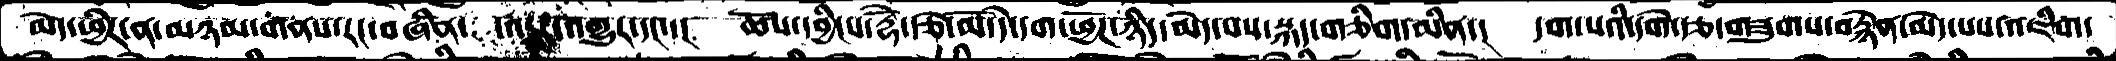མེད་ཕྱིར་ན་མཉམ་གནས་རང་བཞིན་འདར་འགྱུར་དང་་།  ཆོས་དབྱིངས་རྡོེ་རྩེ་མོ་དེ་དག་ཕྱོཌ་ཉིད་མེད་པས་སྐད་གཅིག་མིན་།  དག་པའི་དགེ་རྩ་གཟུགས་བརྙེན་མེད་པས་འཇིག་
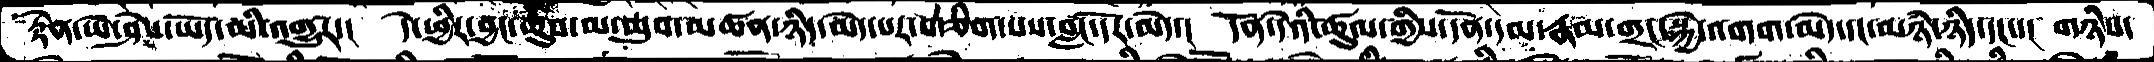རྟེན་ཡེ་ཤེས་ཡོད་མི་འགྱུར་།  དེ་ཕྱིར་བྱང་ཆུབ་མ་ཆུབ་མཚན་ཉིད་མེད་པར་གཅིག་པས་བླང་དོར་མེད་།  དོན་དེའི་ཚུལ་གྱིས་དོན་དམ་རྣམ་གྲང་སྐྱེ་འགག་མེད་དང་མཉཾ་ཉིད་དང་་།  གཉིས་
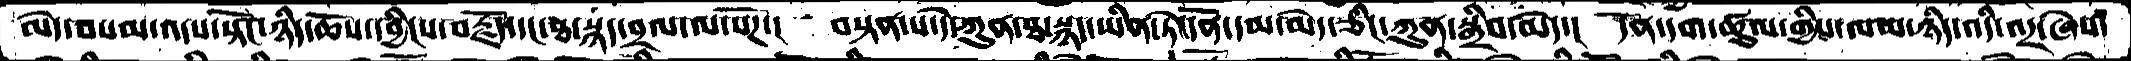མེད་བསམ་འདས་སྟོང་ཉིད་ཆོས་དབྱིངས་བརྗོད་དང་ཐ་སྙད་བྲལ་ལ་སོཌ་།  བསྟན་པ་དེ་ཀུན་ཐ་སྙད་ཡིན་ཏེ་དོན་དམ་མེད་ཅིང་ཀུན་སྒྲིབ་མེད་།  དོན་དག་ཚུལ་གྱིས་ལམ་ཉིད་འདི་འདྲ་ཞེས་
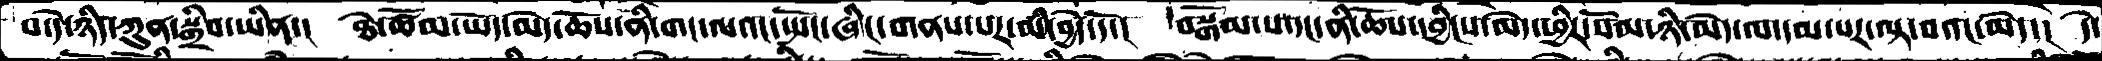པ་དེ་ཉིད་ཀུན་སྒྲིབ་ཡིན་།  ཐེ་ཚོམ་ཡོད་མེད་ཆོས་ནི་གང་ལའང་སྤོང་ཞིང་གནས་པར་མི་བྱེད་དོ་།  བསྒོམ་པ་དང་ནི་ཆོས་དབྱིངས་མེད་ཕྱིར་སོམ་ཉི་མེད་ལ་དམ་པར་ལྟ་བའང་མེད་།  དེ་
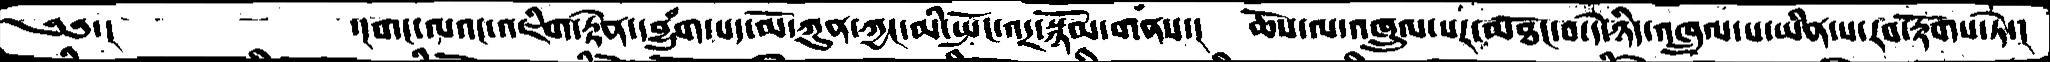༄༅་།     ་།གང་ལའང་འཇིག་རྟེན་དབྱུཾག་པད་མོ་ཀུན་ཀྱང་མི་སྤོང་འདྲ་སྙོམ་གནས་།  ཆོས་ལ་འཁྲུལ་པར་མཐོང་བ་དེ་ཉིད་འཁྲུལ་པ་ཡིན་པ་རབ་རྟོགས་ཏེ་།
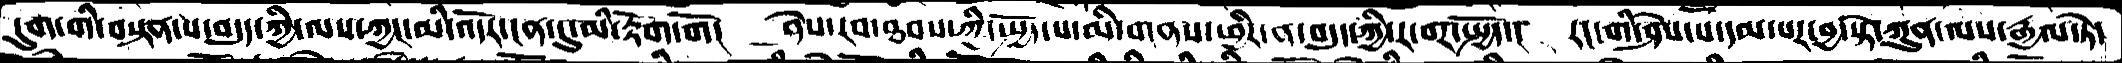དུག་གི་བསྟན་པ་བདུད་ཀྱི་ལས་ཀྱང་མི་འདོར་ངན་དུ་མི་རྟོག་གོ།  ཤེས་རབ་ཐབས་ཀྱི་སྤྱོད་པ་མི་གནས་ཕྱིར་ན་བདུད་ཀྱི་ར་བར་སྤྱོད་།  རང་གི་ཤེས་པ་དམ་པར་བྱ་སྟེ་ཀུན་ལས་རྒྱལ་ཏེ་
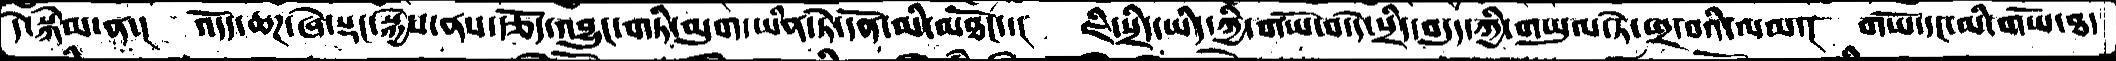དེ་སྐེམ་ན་།  འདོད་ཆཌ་ཞེ་སྡང་སྐྱེས་ནས་རྩོད་འབྱུང་གཏི་མུག་ཡིན་ཏེ་དོན་མི་མཐོང་་།  ཇི་སྲིད་ཡིད་ཀྱི་གཡོ་བ་དེ་སྲིད་བདུད་ཀྱི་གཡུལ་ཏེ་ཕྲ་བའི་ལམ་།  གཡོ་དང་མི་གཡོ་ཐ་
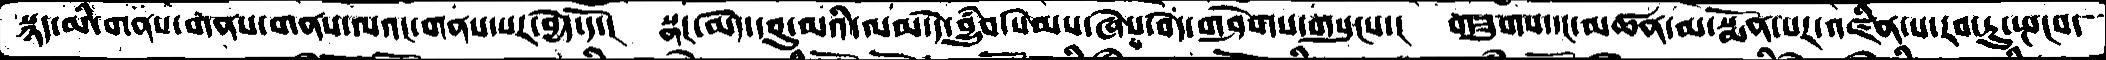སྙད་མི་གནས་གནས་གནས་ལའང་གནས་པར་བྱེད་དོ་།  སྣང་མེད་དབུ་མའི་ལམ་དེ་བྱུཾབ་སེམས་ཞེས་བདེ་གཤེགས་གསུངས་།  གཟུགས་དང་མཚན་མ་སྨོན་པར་འཛིན་པ་རབ་ཏུ་སྤངས་
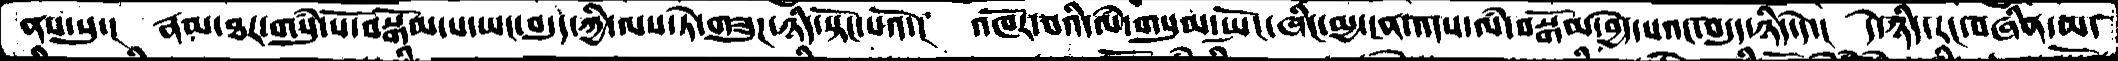ནས་སུ་།   རྣམ་ཐར་གསུཾ་པོ་བསྒོམ་པ་ཡང་བདུད་ཀྱི་ལས་ཏེ་གཟུཌ་ཉིད་སྟོང་པའོ་།  འཁོར་བའི་ལཾ་གསུམ་སྤོང་ཞིང་མྱ་ངན་འདས་ལཾ་བསྒོམ་བྱེད་པའང་བདུད་ཉིད་དེ་།  དེ་ཉིད་རང་བཞིན་མ་
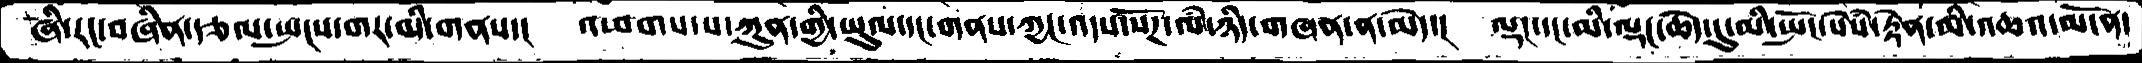ཞི་རང་བཞིན་རྩལ་སྤངས་གར་མི་གནས་།  འཕགས་པ་ཀུན་གྱི་ཡུལ་དང་གནས་ཀྱང་འདས་སོཌ་ལཾ་ཉིད་གཞན་ན་མེད་།   ལྡང་དང་མི་ལྡང་ཆེད་དུ་མི་སྤོང་སེཾས་རྟེན་མི་འཆའ་མངོན་
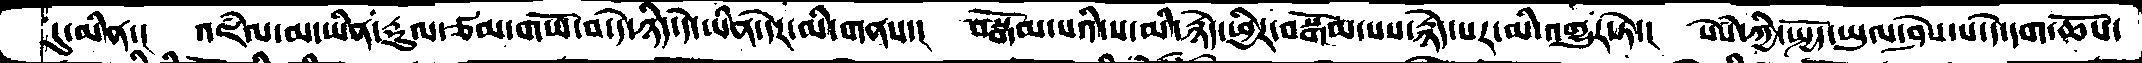དུ་མིན་།  འཇཾལ་མ་ཡིན་རྡུལ་ཙམ་གཡོ་བ་དེ་ཉིད་དེ་ཡིན་དེར་མི་གནས་།  བསྒོམ་པའི་ས་མི་རྙེད་ཕྱིར་བསྒོམ་པས་རྙེད་པར་མི་འགྱུར་ཏེ་།   སེསཾ་ཀྱི་སྤྱོད་ཡུལ་ཤེས་པ་དེ་དག་ཆོས་
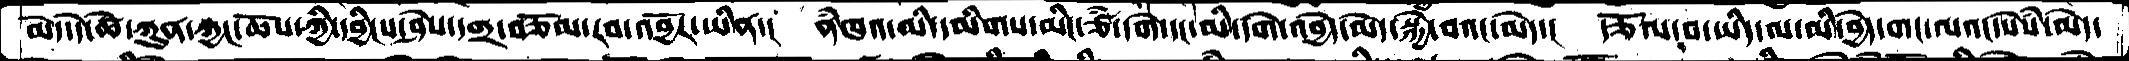མེད་དེ་ཚེ་ཀུན་ཀྱང་ཆོས་ཀྱི་དབྱིངས་ཤེས་དགྲ་བཅོམ་རབ་འབྱོར་ཡིན་།  ནཾཁའ་མི་དམིགས་མིང་ཙཾ་དགེ་དང་མི་དགེ་འབྱེད་མེད་སྐྱེ་བའང་མེད་།  རྩོལ་བ་ཡིད་ལ་མི་བྱེད་གང་ལའང་སེསཾ་མེད་
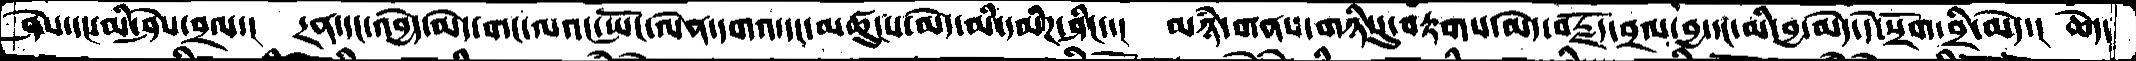ཤེས་དང་མི་ཤེས་བྲལ་།  དྲན་དང་འབྱེད་མེད་གང་ལའང་སྤོང་ལེན་དགའ་དང་མཚུངས་མེད་མི་དམིཌ་ཤིང་་།  མཉཾ་གནས་གཉིསུ་བརྟགས་མེད་བརྗོད་བྲལ་བྱ་དང་མི་བྱ་མེད་དེ་སྲོག་བྲི་མེད་།  ཆེད་
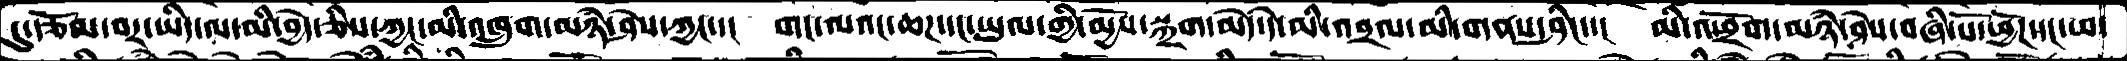དུ་རྩོམ་བར་ཡིད་ལ་མི་བྱེད་ཅིས་ཀྱང་མི་འཁྲུག་མཉཾ་ཤེས་ཀྱང་་།  གང་ལའང་ཆཌ་དང་ཡུལ་གྱི་མྱོས་སྐྲག་མེད་དེ་མི་འབྲལ་མི་གནས་ཤིང་་།  མི་འཕྲོག་མཉཾ་ཤེས་བཞི་པོ་ཕྱོཌ་དང་ཕ་
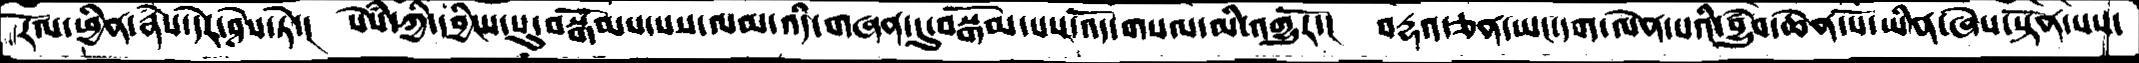རོལ་ཕྱིན་རྣཾས་དེར་ཤེས་ཏེ་།  སེཾས་ཀྱི་དབྱིངས་སུ་བསྒོམས་པས་ལམ་འདི་གཞན་དུ་བསྒོམ་པས་འོད་གསལ་མི་འགྱུརོ་།  བརྡའ་ཅན་ཡང་དག་ལེན་པའི་བྱུཾབ་ཆེན་པོ་ཡིན་ཞེས་སྟོན་པས་
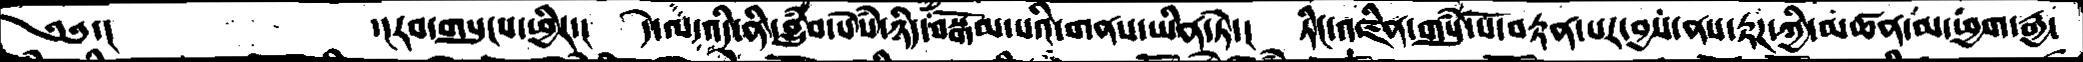༄༅་།     ་།རབ་གསུངས་ཕྱིར་།  དེ་ལ་འདི་ནི་བྱུཾབ་སེཾས་ཉིད་བསྒོམ་པའི་གནས་ཡིན་ཏེ་།  ཏིང་འཛིན་གསུཾ་པོ་བརྟན་པར་བྱས་ནས་རྟཌ་ཀྱི་མཚན་མ་ཕྱག་རྒྱ་
